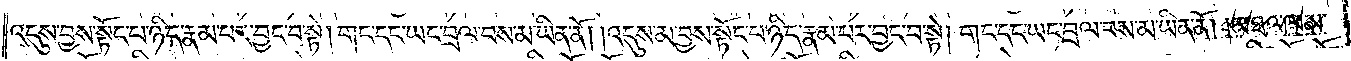འདུས་བྱས་སྟོང་པ་ཉིད་རྣམ་པར་བྱང་བ་སྟེ། གང་དང་ཡང་བྲལ་བས་མ་ཡིན་ནོ། །འདུས་མ་བྱས་སྟོང་པ་ཉིད་རྣམ་པར་བྱང་བ་སྟེ། གང་དང་ཡང་བྲལ་བས་མ་ཡིན་ནོ། །མཐའ་ལས་
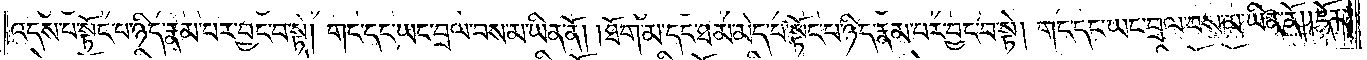འདས་པ་སྟོང་པ་ཉིད་རྣམ་པར་བྱང་བ་སྟེ། གང་དང་ཡང་བྲལ་བས་མ་ཡིན་ནོ། །ཐོག་མ་དང་ཐ་མ་མེད་པ་སྟོང་པ་ཉིད་རྣམ་པར་བྱང་བ་སྟེ། གང་དང་ཡང་བྲལ་བས་མ་ཡིན་ནོ། །དོར་
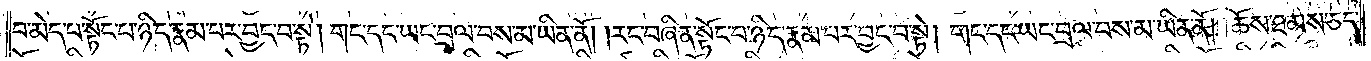བ་མེད་པ་སྟོང་པ་ཉིད་རྣམ་པར་བྱང་བ་སྟེ། གང་དང་ཡང་བྲལ་བས་མ་ཡིན་ནོ། །རང་བཞིན་སྟོང་པ་ཉིད་རྣམ་པར་བྱང་བ་སྟེ། གང་དང་ཡང་བྲལ་བས་མ་ཡིན་ནོ། །ཆོས་ཐམས་ཅད་
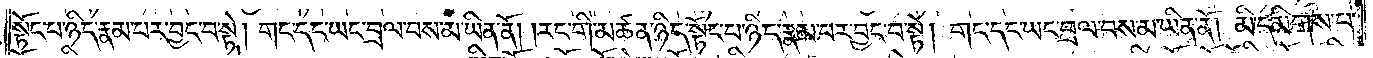སྟོང་པ་ཉིད་རྣམ་པར་བྱང་བ་སྟེ། གང་དང་ཡང་བྲལ་བས་མ་ཡིན་ནོ། །རང་གི་མཚན་ཉིད་སྟོང་པ་ཉིད་རྣམ་པར་བྱང་བ་སྟེ། གང་དང་ཡང་བྲལ་བས་མ་ཡིན་ནོ། །མི་དམིགས་པ་
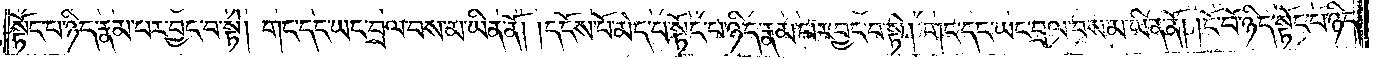སྟོང་པ་ཉིད་རྣམ་པར་བྱང་བ་སྟེ། གང་དང་ཡང་བྲལ་བས་མ་ཡིན་ནོ། །དངོས་པོ་མེད་པ་སྟོང་པ་ཉིད་རྣམ་པར་བྱང་བ་སྟེ། །གང་དང་ཡང་བྲལ་བས་མ་ཡིན་ནོ། །ངོ་བོ་ཉིད་སྟོང་པ་ཉིད་
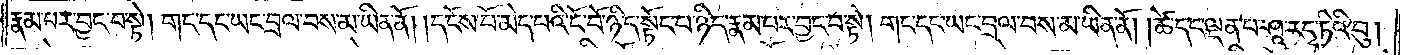རྣམ་པར་བྱང་བ་སྟེ། གང་དང་ཡང་བྲལ་བས་མ་ཡིན་ནོ། །དངོས་པོ་མེད་པའི་ངོ་བོ་ཉིད་སྟོང་པ་ཉིད་རྣམ་པར་བྱང་བ་སྟེ། གང་དང་ཡང་བྲལ་བས་མ་ཡིན་ནོ། །ཚེ་དང་ལྡན་པ་ཤཱ་ར་དྭ་ཏིའི་བུ།
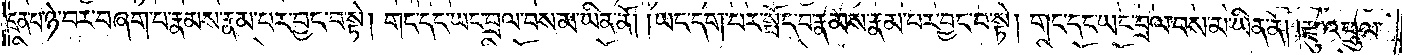དྲན་པ་ཉེ་བར་བཞག་པ་རྣམས་རྣམ་པར་བྱང་བ་སྟེ། གང་དང་ཡང་བྲལ་བས་མ་ཡིན་ནོ། །ཡང་དག་པར་སྤོང་བ་རྣམས་རྣམ་པར་བྱང་བ་སྟེ། གང་དང་ཡང་བྲལ་བས་མ་ཡིན་ནོ། །རྫུ་འཕྲུལ་
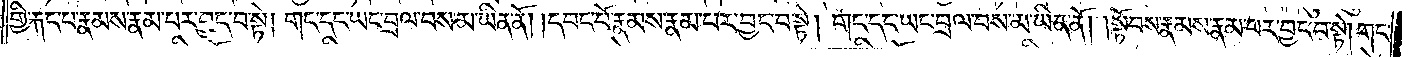གྱི་རྐང་པ་རྣམས་རྣམ་པར་བྱང་བ་སྟེ། གང་དང་ཡང་བྲལ་བས་མ་ཡིན་ནོ། །དབང་པོ་རྣམས་རྣམ་པར་བྱང་བ་སྟེ། གང་དང་ཡང་བྲལ་བས་མ་ཡིན་ནོ། །སྟོབས་རྣམས་རྣམ་པར་བྱང་བ་སྟེ། གང་
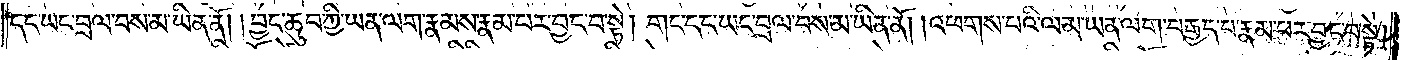དང་ཡང་བྲལ་བས་མ་ཡིན་ནོ། །བྱང་ཆུབ་ཀྱི་ཡན་ལག་རྣམས་རྣམ་པར་བྱང་བ་སྟེ། གང་དང་ཡང་བྲལ་བས་མ་ཡིན་ནོ། །འཕགས་པའི་ལམ་ཡན་ལག་བརྒྱད་པ་རྣམ་པར་བྱང་བ་སྟེ།
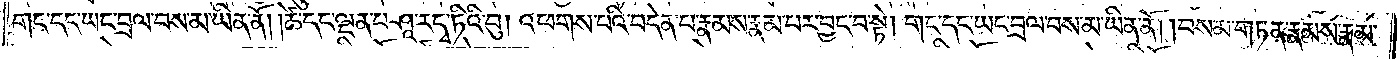གང་དང་ཡང་བྲལ་བས་མ་ཡིན་ནོ། །ཚེ་དང་ལྡན་པ་ཤཱ་ར་དྭ་ཏིའི་བུ། འཕགས་པའི་བདེན་པ་རྣམས་རྣམ་པར་བྱང་བ་སྟེ། གང་དང་ཡང་བྲལ་བས་མ་ཡིན་ནོ། །བསམ་གཏན་རྣམས་རྣམ་
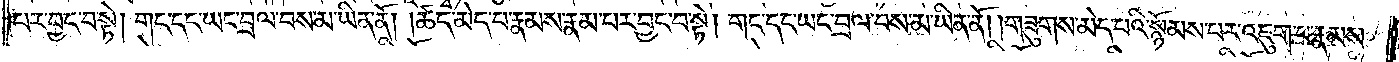པར་བྱང་བ་སྟེ། གང་དང་ཡང་བྲལ་བས་མ་ཡིན་ནོ། །ཚད་མེད་པ་རྣམས་རྣམ་པར་བྱང་བ་སྟེ། གང་དང་ཡང་བྲལ་བས་མ་ཡིན་ནོ། །གཟུགས་མེད་པའི་སྙོམས་པར་འཇུག་པ་རྣམས་
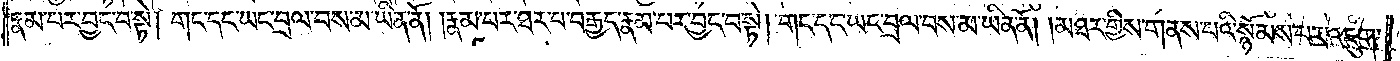རྣམ་པར་བྱང་བ་སྟེ། གང་དང་ཡང་བྲལ་བས་མ་ཡིན་ནོ། །རྣམ་པར་ཐར་པ་བརྒྱད་རྣམ་པར་བྱང་བ་སྟེ། གང་དང་ཡང་བྲལ་བས་མ་ཡིན་ནོ། །མཐར་གྱིས་གནས་པའི་སྙོམས་པར་འཇུག་
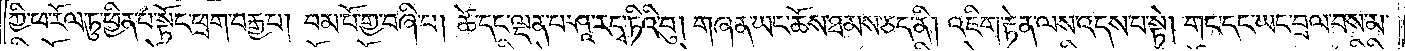ཀྱི་ཕ་རོལ་ཏུ་ཕྱིན་པ་སྟོང་ཕྲག་བརྒྱ་པ། །བམ་པོ་གྱ་བཞི་པ། །ཚེ་དང་ལྡན་པ་ཤཱ་ར་དྭ་ཏིའི་བུ། གཞན་ཡང་ཆོས་ཐམས་ཅད་ནི། འཇིག་རྟེན་ལས་འདས་པ་སྟེ། གང་དང་ཡང་བྲལ་བས་མ་
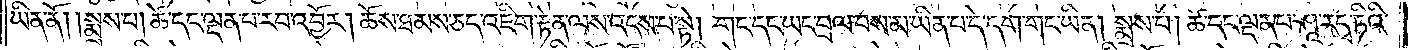ཡིན་ནོ། །སྨྲས་པ། ཚེ་དང་ལྡན་པ་རབ་འབྱོར། ཆོས་ཐམས་ཅད་འཇིག་རྟེན་ལས་འདས་པ་སྟེ། གང་དང་ཡང་བྲལ་བས་མ་ཡིན་པ་དེ་དག་གང་ཡིན། སྨྲས་པ། ཚེ་དང་ལྡན་པ་ཤཱ་ར་དྭ་ཏིའི་
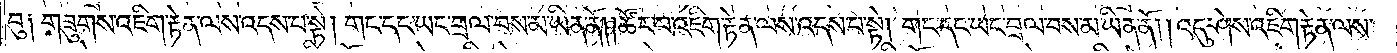བུ། གཟུགས་འཇིག་རྟེན་ལས་འདས་པ་སྟེ། གང་དང་ཡང་བྲལ་བས་མ་ཡིན་ནོ། །ཚོར་བ་འཇིག་རྟེན་ལས་འདས་པ་སྟེ། གང་དང་ཡང་བྲལ་བས་མ་ཡིན་ནོ། །འདུ་ཤེས་འཇིག་རྟེན་ལས་
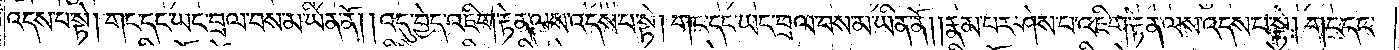འདས་པ་སྟེ། གང་དང་ཡང་བྲལ་བས་མ་ཡིན་ནོ། །འདུ་བྱེད་འཇིག་རྟེན་ལས་འདས་པ་སྟེ། གང་དང་ཡང་བྲལ་བས་མ་ཡིན་ནོ། །རྣམ་པར་ཤེས་པ་འཇིག་རྟེན་ལས་འདས་པ་སྟེ། གང་དང་
